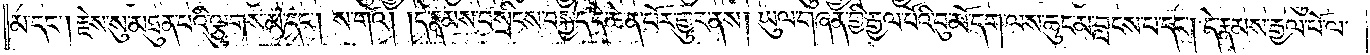མ་དང༌། རྗེས་སུ་མཐུན་པའི་ལྕུགས་མ་དང༌། ས་གའོ། །དེ་རྣམས་བསྲིངས་བསྐྱེད་དེ་ཆེན་པོར་གྱུར་ནས། ཡུལ་གཞན་གྱི་རྒྱལ་པོའི་བུ་མོ་དག་ལས་ཆུང་མ་བླངས་པ་དང༌། དེ་རྣམས་རྒྱལ་པོ་ལ་
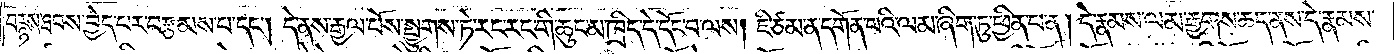བརྙས་ཐབས་བྱེད་པར་བརྩམས་པ་དང༌། དེ་ནས་རྒྱལ་པོས་སྤྱུགས་ཏེ་རང་རང་གི་ཆུང་མ་ཁྲིད་དེ་དོང་བ་ལས། ཇི་ཙམ་ན་དགོན་པའི་ལམ་ཞིག་ཏུ་ཕྱིན་པ་ན། དེ་རྣམས་ལམ་རྒྱགས་ཆད་ནས་དེ་རྣམས་
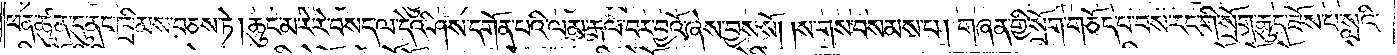ཕན་ཚུན་དུ་ནང་ཁྲིམས་བཅས་ཏེ། ཆུང་མ་རེ་རེ་བསད་ལ་དེའི་ཤས་དགོན་པའི་ལམ་རྒལ་བར་བྱའོ་ཞེས་བྱས་སོ། །ས་གས་བསམས་པ། གཞན་གྱི་སྲོག་གཅོད་པ་བས་རང་གི་སྲོག་ཆུད་ཟོས་པ་སླའི་
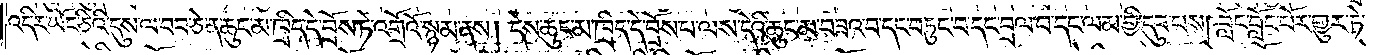འདིར་ཡོང་ཅིའི་དུས་ལ་བབ་ཅེ་ན་ཆུང་མ་ཁྲིད་དེ་བྲོས་ཏེ་འགྲོའོ་སྙམ་ནས། དེས་ཆུང་མ་ཁྲིད་དེ་བྲོས་པ་ལས་དེའི་ཆུང་མ་བཟའ་བ་དང་བཏུང་བ་དང་བྲལ་བ་དང་ལམ་གྱི་དུབ་པས། བློང་བློང་པོར་གྱུར་ཏེ་
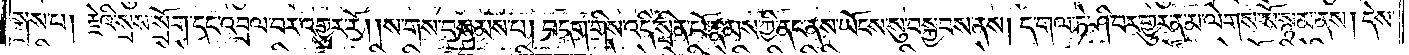སྨྲས་པ། རྗེའི་སྲས་སྲོག་དང་འབྲལ་བར་འགྱུར་རོ། །ས་གས་བསམས་པ། བདག་གིས་འདི་སྲིན་པོ་རྣམས་ཀྱི་ནང་ནས་ཡོངས་སུ་བསྐྱབས་ནས། ད་གལ་ཏེ་ཤི་བར་གྱུར་ན་མ་ལེགས་སོ་སྙམ་ནས། དེས་
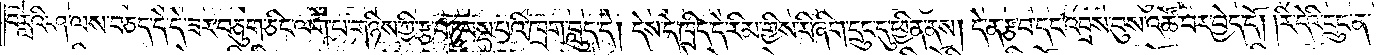བརླའི་ཤ་ལས་བཅད་དེ་དེ་ཟར་བཅུག་ཅིང་ལག་པ་གཉིས་ཀྱི་རྩ་བཏུབས་པའི་ཁྲག་བླུད་དེ། དེས་དེ་ཁྲིད་དེ་རིམ་གྱིས་རི་ཞིག་དྲུང་དུ་ཕྱིན་ནས། དེ་ན་རྩ་བ་དང་འབྲས་བུས་འཚོ་བར་བྱེད་དོ། །རི་དེའི་དྲུང་ན་
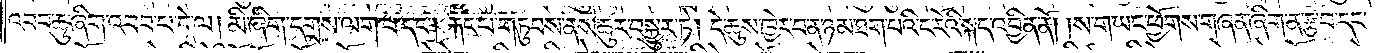འབབ་ཆུ་ཞིག་འབབ་པ་དེ་ལ། མི་ཞིག་དགྲས་ལག་པ་དང༌། རྐང་པ་གཏུབས་ནས་ཆུར་བསྐྱུར་ཏེ། དེ་ཆུས་ཁྱེར་བ་ན་ཉམ་ཐག་པའི་ང་རོའི་སྐད་འབྱིན་ནོ། །ས་ག་ཡང་ཕྱོགས་གཞན་ཞིག་ན་རྩ་བ་དང་
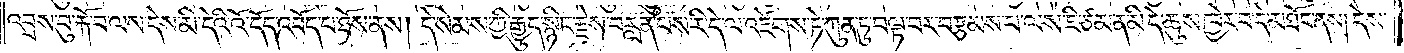འབྲས་བུ་རྐོ་བ་ལས་དེས་མི་དེའི་འོ་དོད་འབོད་པ་ཐོས་ནས། དེ་སེམས་ཀྱི་རྒྱུད་སྙིང་རྗེས་བརླན་པས་རི་དེ་ལ་འཛེགས་ཏེ་ཀུན་ཏུ་བལྟ་བར་བརྩམས་པ་ལས་ཇི་ཙམ་ན་མི་དེ་ཆུས་ཁྱེར་བ་དེ་མཐོང་ནས། དེས་
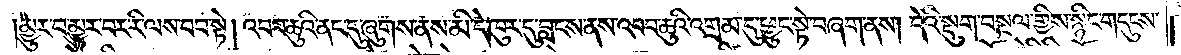།མྱུར་བ་མྱུར་བར་རི་ལས་བབ་སྟེ། འབབ་ཆུའི་ནང་དུ་ཞུགས་ནས་མི་དེ་ཁུར་དུ་བླངས་ནས་འབབ་ཆུའི་འགྲམ་དུ་ཕྱུང་སྟེ་བཞག་ནས། དེའི་སྡུག་བསྔལ་གྱིས་སྙིང་གདུངས་
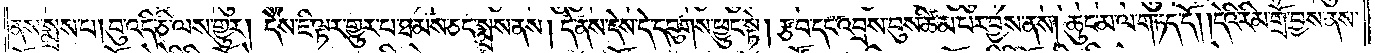ནས་སྨྲས་པ། བུ་འདི་ཅི་ལས་གྱུར། དེས་ཇི་ལྟར་གྱུར་པ་ཐམས་ཅད་སྨྲས་ནས། དེ་ནས་དེས་དེ་དབུགས་ཕྱུང་སྟེ། རྩ་བ་དང་འབྲས་བུས་ཚིམ་པར་བྱས་ནས། ཆུང་མ་ལ་གཏད་དོ། །དེའི་རིམ་གྲོ་བྱས་ནས་
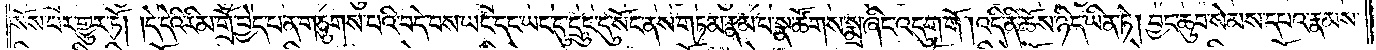སོས་པར་གྱུར་ཏོ། །དེ་དེའི་རིམ་གྲོ་བྱེད་པ་ན་གཅུགས་པའི་བདེ་བས་ཡང་དང་ཡང་དུ་དྲུང་དུ་སོང་ནས་གཏམ་རྣམ་པ་སྣ་ཚོགས་སྨྲ་ཞིང་འདུག་གོ །འདི་ནི་ཆོས་ཉིད་ཡིན་ཏེ། བྱང་ཆུབ་སེམས་དཔའ་རྣམས་
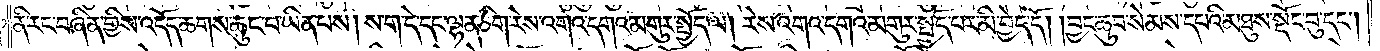ནི་རང་བཞིན་གྱིས་འདོད་ཆགས་ཆུང་བ་ཡིན་པས། ས་ག་དེ་དང་ལྷན་ཅིག་རེས་འགའ་དགའ་མགུར་སྤྱོད་ལ། རེས་འགའ་དགའ་མགུར་སྤྱོད་པར་མི་བྱེད་དོ། །བྱང་ཆུབ་སེམས་དཔའི་མཐུས་སྡོང་བུ་དང༌།
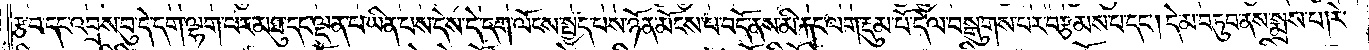རྩ་བ་དང་འབྲས་བུ་དེ་དག་ལྷག་པར་མཐུ་དང་ལྡན་པ་ཡིན་པས་དེས་དེ་དག་ལོངས་སྤྱད་པས་ཉོན་མོངས་པ་བདོ་ནས་མི་རྐང་ལག་རྡུམ་པོ་དེ་ལ་བསྒུགས་པར་བརྩམས་པ་དང༌། དེ་མ་བཏུབ་ནས་སྨྲས་པ། རེ་
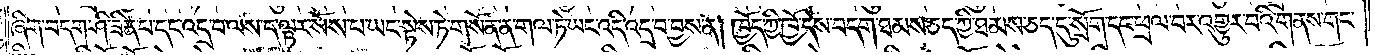ཞིག་བདག་ཤི་ཟིན་པ་དང་འདྲ་བ་ལས་ད་ལྟར་སོས་པ་ཡང་སྟེས་ཏེ་གསོན་ན་གལ་ཏེ་ཡང་འདི་འདྲ་བ་བྱས་ན། ཁྱོད་ཀྱི་ཁྱོ་དེས་བདག་ཐམས་ཅད་ཀྱི་ཐམས་ཅད་དུ་སྲོག་དང་ཕྲལ་བར་འགྱུར་བའི་གནས་གང་
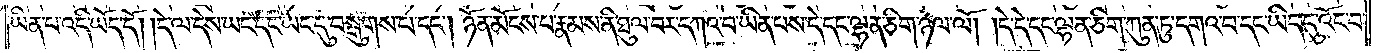ཡིན་པ་འདི་ཡོད་དོ། །དེ་ལ་དེས་ཡང་དང་ཡང་དུ་བསྒུགས་པ་དང༌། ཉོན་མོངས་པ་རྣམས་ནི་ཐུལ་བར་དཀའ་བ་ཡིན་པས་དེ་དང་ལྷན་ཅིག་ཉལ་ལོ། །དེ་དེ་དང་ལྷན་ཅིག་ཀུན་ཏུ་དགའ་བ་དང་ཡིད་དུ་འོང་བ་
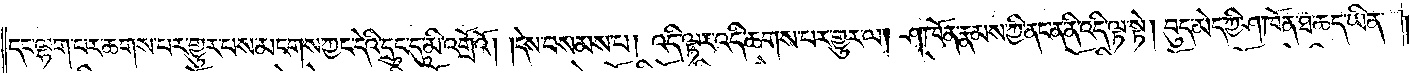དང་ལྷག་པར་ཆགས་པར་གྱུར་པས་མངགས་ཀྱང་དེའི་དྲུང་དུ་མི་འགྲོའོ། །དེས་བསམས་པ། འདི་ལྟར་འདི་ཆགས་པར་གྱུར་ལ། ཤ་ཁོན་རྣམས་ཀྱི་ནང་ན་ནི་འདི་ལྟ་སྟེ། བུད་མེད་ཀྱི་ཤ་ཁོན་ཐ་ཆད་ཡིན་
